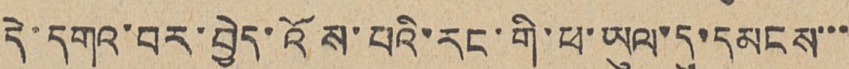དེ་དགའ་བར་བྱེད་འོས་པའི་རང་གི་ཕ་ཡུལ་དུ་དམངས་་་
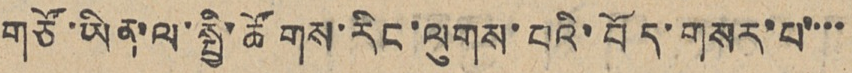གཙོ་ཡིན་ལ་སྤྱི་ཚོགས་རིང་ལུགས་པའི་བོད་གསར་པ་་་་
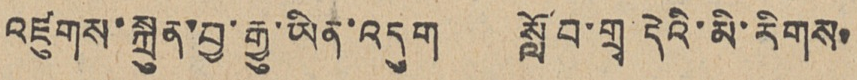འཛུགས་སྐྲུན་བྱ་རྒྱུ་ཡིན་འདུག སློབ་གྲྭ་དེའི་མི་རིགས་
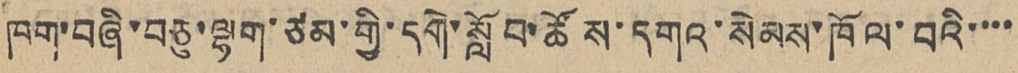ཁག་བཞི་བཅུ་ལྷག་ཙམ་གྱི་དགེ་སློབ་ཚོས་དགའ་སེམས་ཁོལ་བའི་་་་
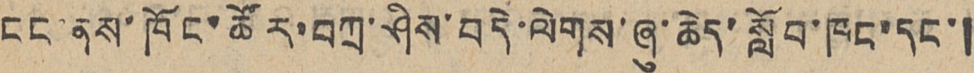ངང་ནས་ཁོང་ཚོར་བཀྲ་ཤིས་བདེ་ལེགས་ཞུ་ཆེད་སློབ་ཁང་དང་།
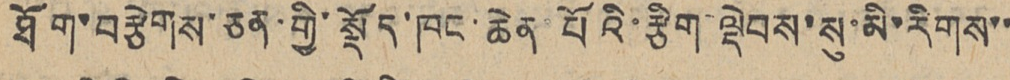ཐོག་བརྩེགས་ཅན་གྱི་སྡོད་ཁང་ཆེན་པོའི་རྩིག་ལྡེབས་སུ་མི་རིགས་་
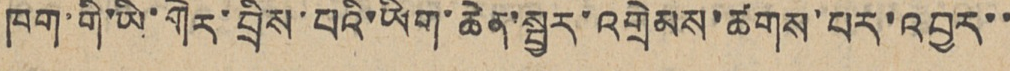ཁག་གི་ཡི་གེར་བྲིས་པའི་ཡིག་ཆེན་སྦྱར་འགྲེམས་ཚགས་པར་འབྱར་་
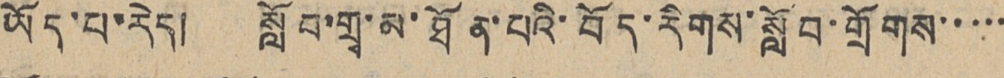ཡོད་པ་རེད། སློབ་གྲྭ་མ་ཐོན་པའི་བོད་རིགས་སློབ་གྲོགས་་་་་
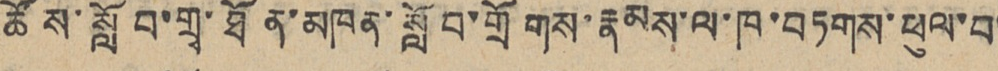ཚོས་སློབ་གྲྭ་ཐོན་མཁན་སློབ་གྲོགས་རྣམས་ལ་ཁ་བཏགས་ཕུལ་བ་
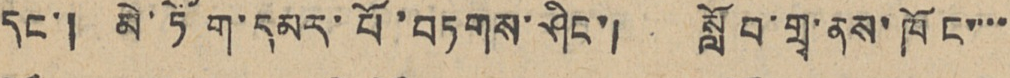དང་། མེ་ཏོག་དམར་པོ་བཏགས་ཤིང་། སློབ་གྲྭ་ནས་ཁོང་་་་
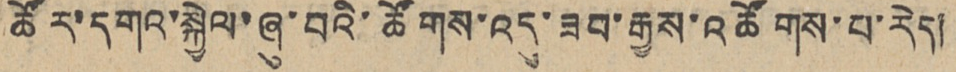ཚོར་དགའ་སྐྱེལ་ཞུ་བའི་ཚོགས་འདུ་ཟབ་རྒྱས་འཚོགས་པ་རེད།
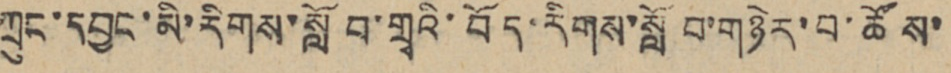ཀྲུང་དབྱང་མི་རིགས་སློབ་གྲྭའི་བོད་རིགས་སློབ་གཉེར་བ་ཚོས་
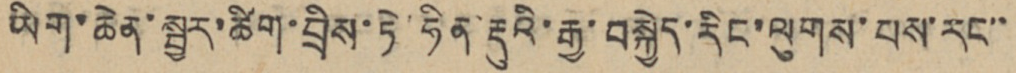ཡིག་ཆེན་སྦྱར་ཚིག་བྲིས་ཏེ་ཧིན་རྡུའི་རྒྱ་བསྐྱེད་རིང་ལུགས་པས་རང་་
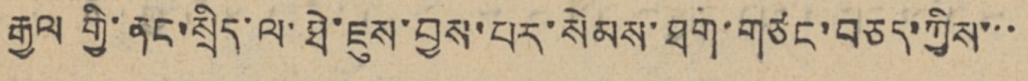རྒྱལ གྱི་ནང་སྲིད་ལ་ཐེ་ཇུས་བྱས་པར་སེམས་ཐག་གཙང་བཅད་ཀྱིས་་་
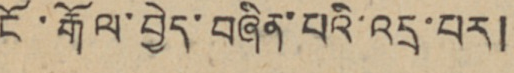ངོ་རྒོལ་བྱེད་བཞིན་པའི་འདྲ་པར།
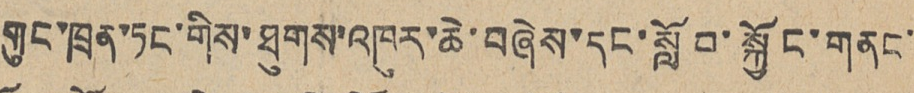གུང་ཁྲན་ཏང་གིས་ཐུགས་འཁུར་ཆེ་བཞེས་དང་སློབ་སྐྱོང་གནང་
